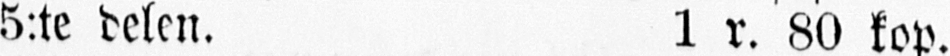5:te delen. 1 r. 80 kop.
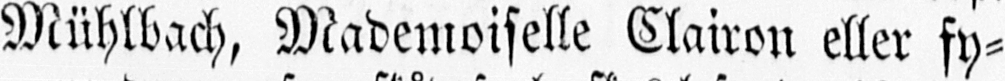Mühlbach, Mademoiselle Clairon eller fy-
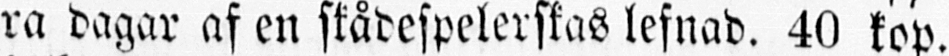ra dagar af en skådespelerskas lefnad. 40 kop.
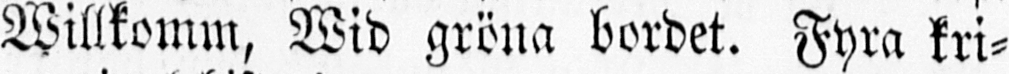Willkomm, Wid gröna bordet. Fyra kri-
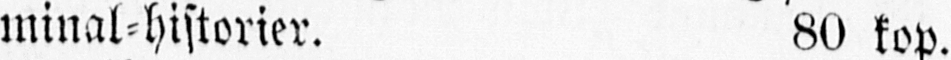minal-historier. 80 kop.
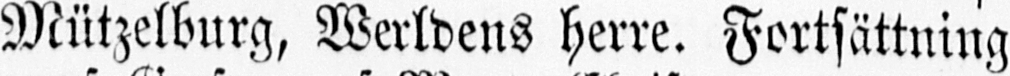Mützelburg, Werldens herre. Fortsättning
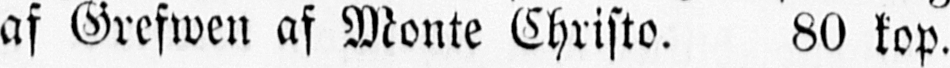af Grefwen af Monte Christo. 80 kop.
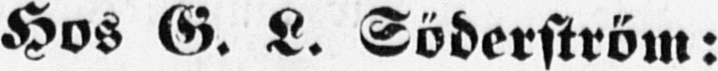Hos G. L. Söderström:
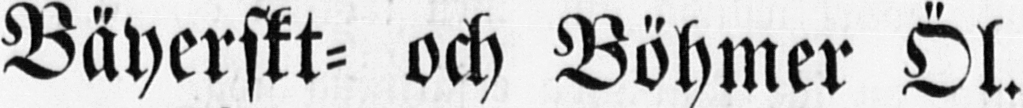Bäyerskt- och Böhmer Öl.
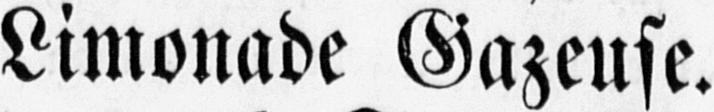Limonade Gazeuse.
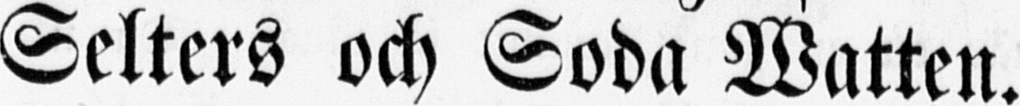Selters och Soda Watten.
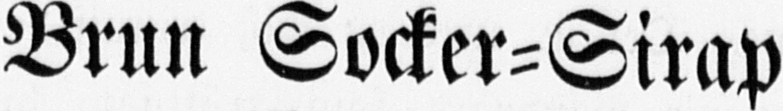Brun Socker-Sirap
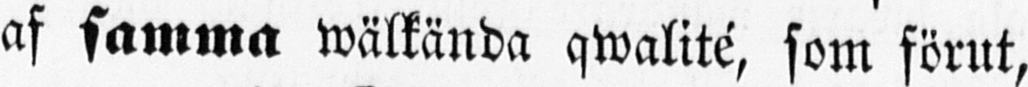af samma wälkända qwalité, som förut,
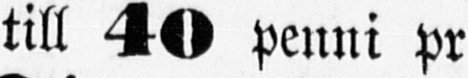till 40 penni pr
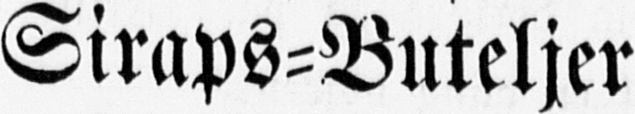Siraps-Buteljer
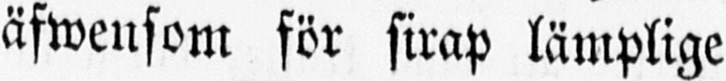äfwensom för sirap lämplige
